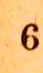6
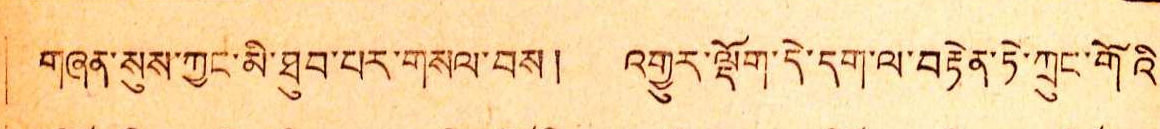བཞན་སུས་ཀྱང་མི་ཐུབ་པར་གསལ་བས། འགྱུད་ལྡོག་དེ་དག་ལ་བརྟེན་ཏེ་ཀྲུང་གོའི་
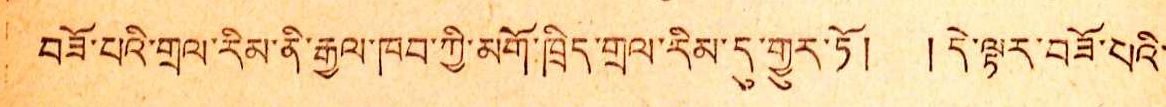བཟོ་པའི་གྲལ་རིམ་ནི་རྒྱལ་ཁབ་ཀྱི་མགོ་ཁྲིད་གྲལ་རིམ་དུ་གྱུར་ཏོ། །དེ་ལྟར་བཟོ་པའི་
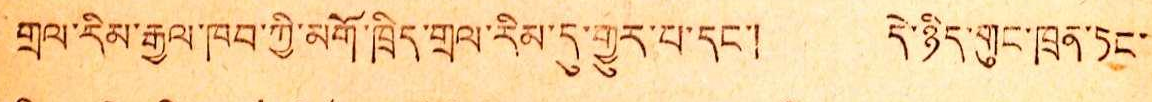གྲལ་རིམ་རྒྱལ་ཁབ་གྱི་མགོ་ཁྲིད་གྲལ་རིམ་དུ་གྱུར་པ་དང་། དེ་ཉིད་གུང་ཁྲན་ཏང་
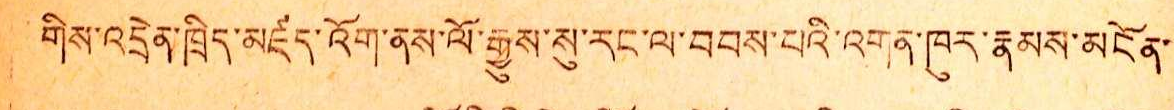གིས་འདྲེན་ཁྲིད་མཛད་འོག་ནས་ལོ་རྒྱུས་སུ་རང་ལ་བབས་པའི་འགན་ཁུར་རྣམས་མངོན་
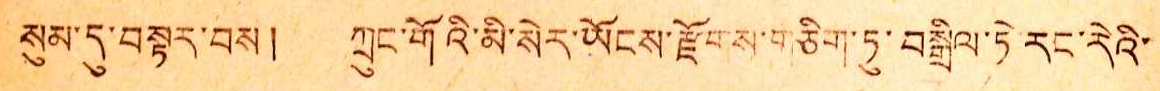སུམ་དུ་བསྟར་བས། ཀྲུང་གོའི་མི་སེར་ཡོངས་རྫོགས་གཅིག་ཏུ་བསྒྲིལ་ཏེ་རང་རེའི་
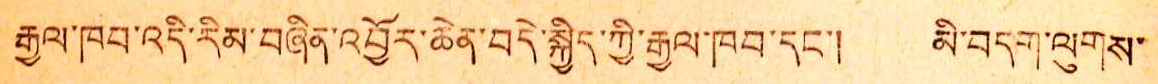རྒྱལ་ཁབ་འདི་རིམ་བཞིན་འབྱོར་ཆེན་བདེ་སྐྱིད་ཀྱི་རྒྱལ་ཁབ་དང་། མི་བདག་ལུགས་
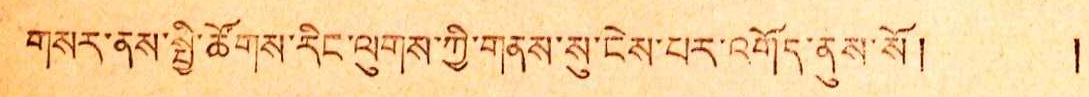གསར་ནས་སྤྱི་ཚོགས་རིང་ལུགས་ཀྱི་གནས་སུ་ངེས་པར་འགོད་ནུས་སོ། །
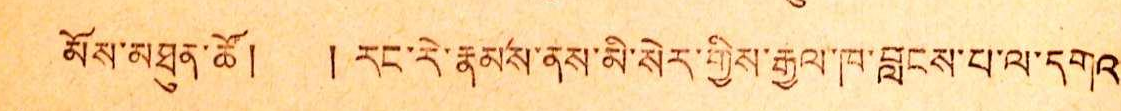མོས་མཐུ་ཚོ། ། རང་རེ་རྣམས་ནས་མི་སེར་གྱིས་རྒྱལ་ཁ་བླངས་པ་ལ་དགའ
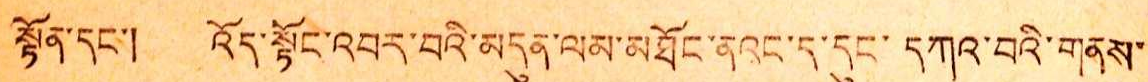སྟོན་དང་། འོད་སྟོང་འབར་བའི་མདུན་ལམ་མཐོང་ནའང་ད་དུང་དཀའ་བའི་གནས་
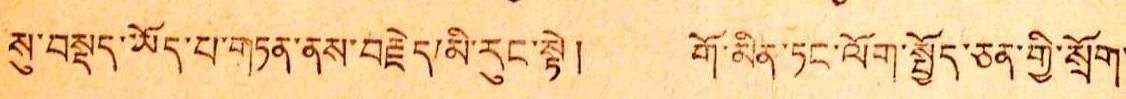སུ་བསྡད་ཡོད་པ་གཏན་ནས་བརྗེད་མི་རུང་སྷེ། གོ་མིན་ཏང་ལོག་སྤྱོད་ཅན་གྱི་སྲོག་
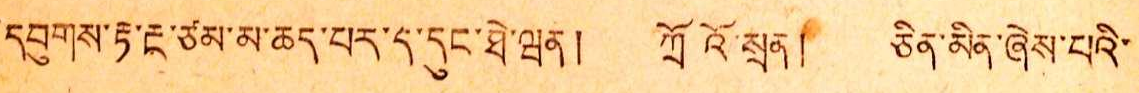དབུགས་རྟ་རྔ་ཙམ་མ་ཆད་པར་ད་དུང་ཐེ་ཝན། ཀྲོའོ་སྲན། ཅིན་མིན་ཞེས་པའི་
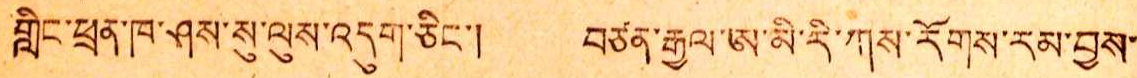གླིང་ཕྲན་ཁ་ཤས་སུ་ལུས་འདུག་ཅིང་། བཙན་རྒྱལ་ཨ་མི་རི་ཀས་རོགས་རམ་བྱས་
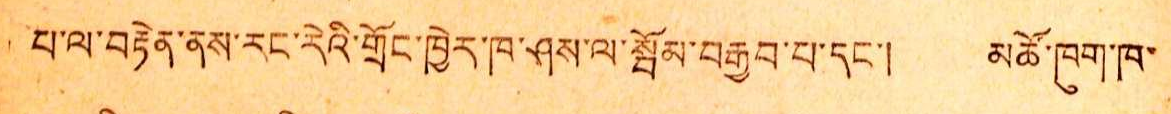བ་ལ་བརྟེན་ནས་རང་རེའི་གྲོང་ཁྱེར་ཁ་ཤས་ལ་སྦོམ་བརྒྱབ་པ་དང་། མཚོ་ཁུག་ཁ་
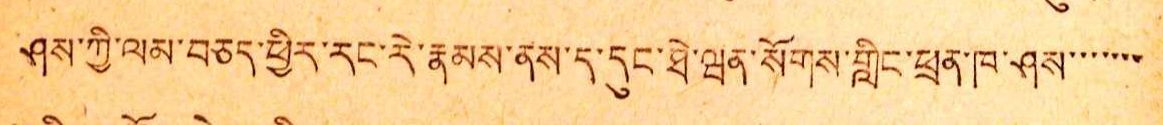ཤས་ཀྱི་ལམ་བཅད་ཕྱིར་རང་རེ་རྣམས་ནས་ད་དུང་ཐེ་ཝན་སོགས་གླིང་ཕྲན་ཁ་ཤས་་་་་་
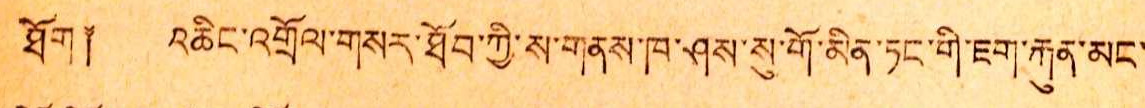ཐོག༈ འཆིང་འགྲོལ་གསར་ཐོབ་ཀྱི་ས་གནས་ཁ་ཤས་སུ་གོ་མིན་ཏང་གི་ཇག་རྐུན་མང་
